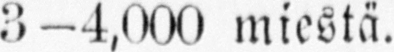3—4,000 miestä.
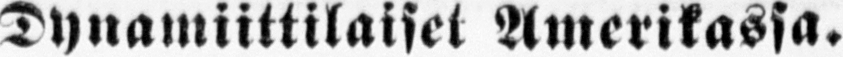Dynamiittilaiset Amerikassa.
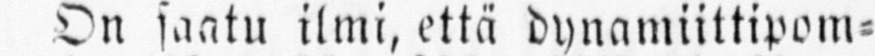On saatu ilmi, että dynamiittipom-
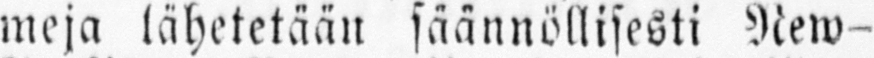meja lähetetään säännöllisesti New-
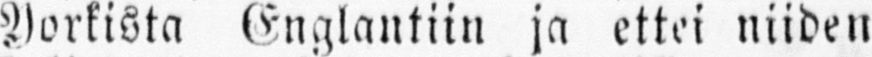Yorkista Englantiin ja ettei niiden
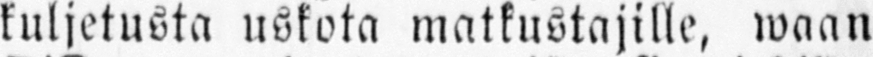kuljetusta uskota matkustajille, waan
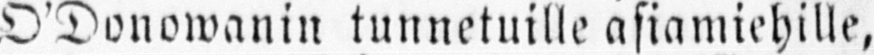O'Donowanin tunnetuille asiamiehille,
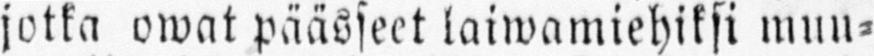jotka owat päässeet laiwamiehiksi muu-
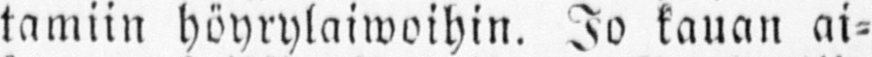tamiin höyrylaiwoihin. Jo kauan ai-
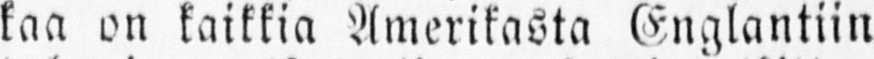kaa on kaikkia Amerikasta Englantiin
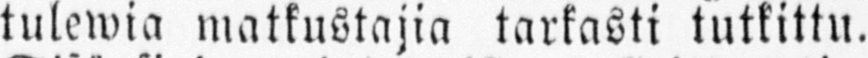tulewia matkustajia tarkasti tutkittu.
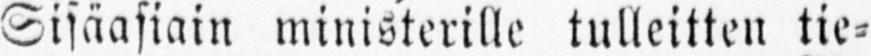Sisäasiain ministerille tulleitten tie-
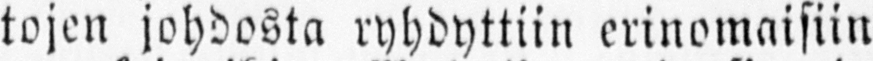tojen johdosta ryhdyttiin erinomaisiin
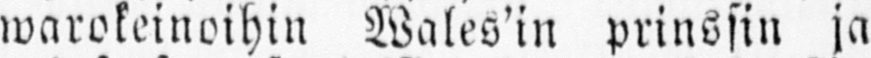warokeinoihin Wales'in prinssin ja
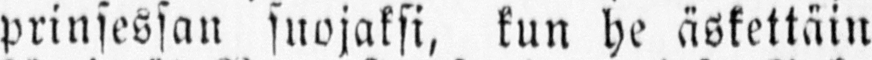prinsessan suojaksi, kun he äskettäin
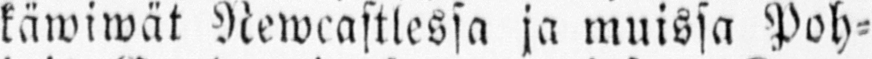käwiwät Newcastlessa ja muissa Poh-
